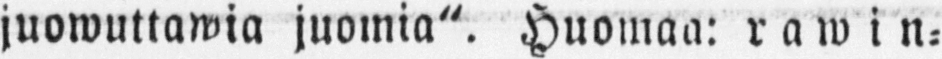juowuttawia juomia". Huomaa: rawin-
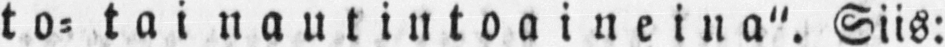to- tai nautintoaineina". Siis:
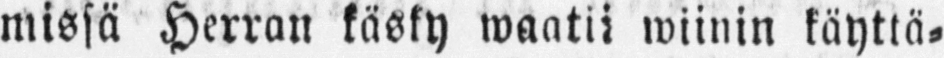missä Herran käsky waatii wiinin käyttä-
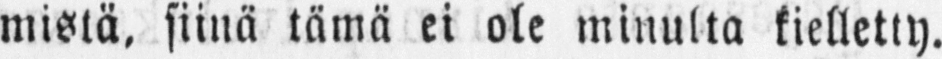mistä, siinä tämä ei ole minulta kielletty.
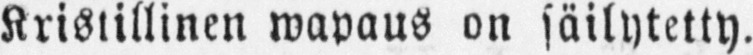Kristillinen wapaus on säilytetty.
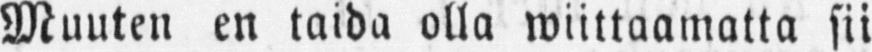Muuten en taida olla wiittaamatta sii-
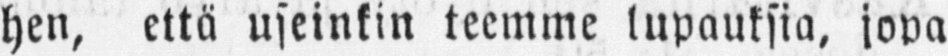hen, että useinkin teemme lupauksia, jopa
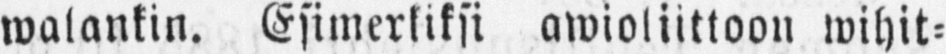walankin. Esimerkiksi awioliittoon wihit-
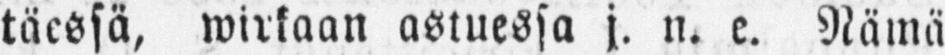täessä, wirkaan astuessa j. n. e. Nämä
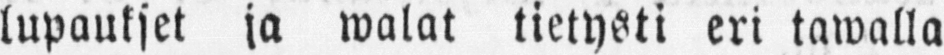lupaukset ja walat tietysti eri tawalla
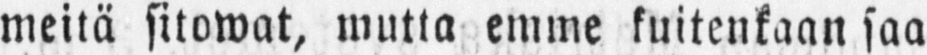meitä sitowat, mutta emme kuitenkaan saa-
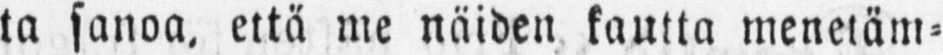ta sanoa, eitä me näiden kautta menetäm-
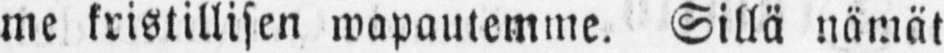me kristillisen wapautemme. Sillä nämät
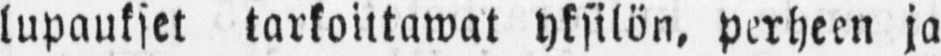lupaukset tarkoittawat yksilön, perheen ja
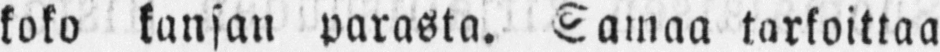koko kansan parasta. Samaa tarkoittaa
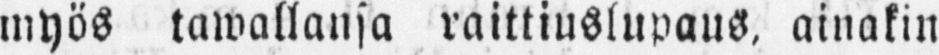myös tawallansa raittiuslupaus, ainakin
